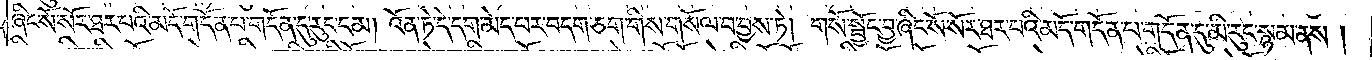ཞིང་སོ་སོར་ཐར་པའི་མདོ་གདོན་པ་གདོན་དུ་རུང་ངམ། འོན་ཏེ་དེ་དག་མེད་པར་བདག་ཅག་གིས་གསོལ་བ་བྱས་ཏེ། གསོ་སྦྱོང་བྱ་ཞིང་སོ་སོར་ཐར་པའི་མདོ་གདོན་པ་གདོན་དུ་མི་རུང་སྙམ་ནས།
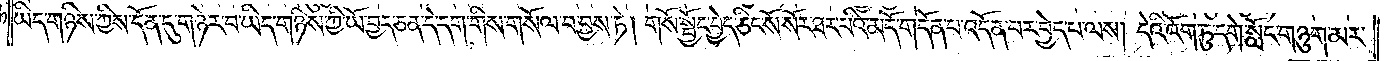ཡིད་གཉིས་ཀྱིས་དོན་དུ་གཉེར་བ་ཡིད་གཉིས་ཀྱི་ཡོ་བྱད་ཅན་དེ་དག་གིས་གསོལ་བ་བྱས་ཏེ། གསོ་སྦྱོང་བྱེད་ཅིང་སོ་སོར་ཐར་པའི་མདོ་གདོན་པ་འདོན་པར་བྱེད་པ་ལས། དེའི་འོག་ཏུ་དགེ་སློང་གཉུག་མར་
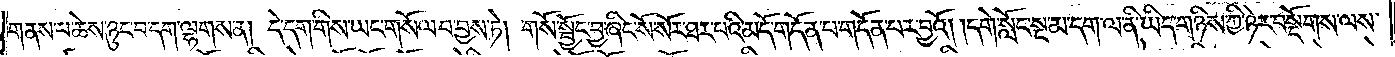གནས་པ་ཆེས་ཉུང་བ་དག་ལྷགས་ན། དེ་དག་གིས་ཡང་གསོལ་བ་བྱས་ཏེ། གསོ་སྦྱོང་བྱ་ཞིང་སོ་སོར་ཐར་པའི་མདོ་གདོན་པ་གདོན་པར་བྱའོ། །དགེ་སློང་སྔ་མ་དག་ལ་ནི་ཡིད་གཉིས་ཀྱི་ཉེར་བསྡོགས་ལས་
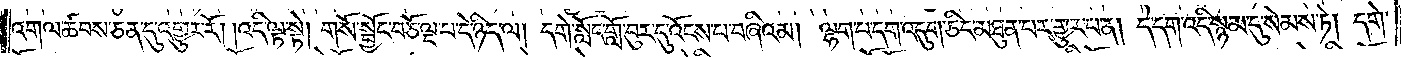འགལ་ཚབས་ཅན་དུ་འགྱུར་རོ། །འདི་ལྟ་སྟེ། གསོ་སྦྱོང་བཅོ་ལྔ་པ་དེ་ཉིད་ལ། དགེ་སློང་གློ་བུར་དུ་འོངས་པ་བཞིའམ། ལྷག་པ་དག་འདུག་ཅིང་མཐུན་པར་གྱུར་པ་ན། དེ་དག་འདི་སྙམ་དུ་སེམས་ཏེ། དགེ་
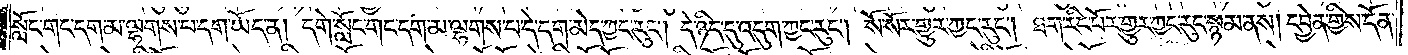སློང་གང་དག་མ་ལྷགས་པ་དག་ཡོད་ན། དགེ་སློང་གང་དག་མ་ལྷགས་པ་དེ་དག་མེད་ཀྱང་རུང༌། དེ་ཉིད་དུ་འདུག་ཀྱང་རུང༌། སོ་སོར་གྱུར་ཀྱང་རུང༌། ཐག་རིང་པོར་གྱུར་ཀྱང་རུང་སྙམ་ནས། དབྱེན་གྱིས་དོན་
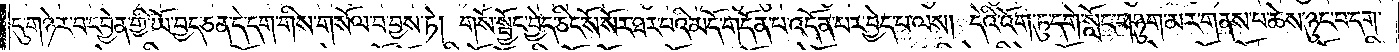དུ་གཉེར་བ་དབྱེན་གྱི་ཡོ་བྱད་ཅན་དེ་དག་གིས་གསོལ་བ་བྱས་ཏེ། གསོ་སྦྱོང་བྱེད་ཅིང་སོ་སོར་ཐར་པའི་མདོ་གདོན་པ་འདོན་པར་བྱེད་པ་ལས། དེའི་འོག་ཏུ་དགེ་སློང་གཉུག་མར་གནས་པ་ཆེས་ཉུང་བ་དག་
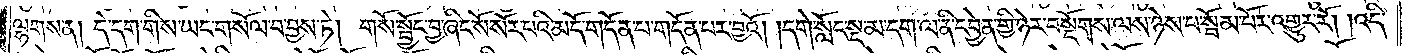ལྷགས་ན། དེ་དག་གིས་ཡང་གསོལ་བ་བྱས་ཏེ། གསོ་སྦྱོང་བྱ་ཞིང་སོ་སོར་པའི་མདོ་གདོན་པ་གདོན་པར་བྱའོ། །དགེ་སློང་སྔ་མ་དག་ལ་ནི་དབྱེན་གྱི་ཉེར་བསྡོགས་ལས་ཉེས་པ་སྦོམ་པོར་འགྱུར་རོ། །འདི་
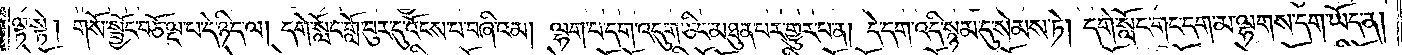ལྟ་སྟེ། གསོ་སྦྱོང་བཅོ་ལྔ་པ་དེ་ཉིད་ལ། དགེ་སློང་གློ་བུར་དུ་འོངས་པ་བཞིའམ། ལྷག་པ་དག་འདུག་ཅིང་མཐུན་པར་གྱུར་པ་ན། དེ་དག་འདི་སྙམ་དུ་སེམས་ཏེ། དགེ་སློང་གང་དག་མ་ལྷགས་དག་ཡོད་ན།
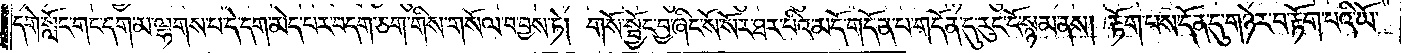དགེ་སློང་གང་དག་མ་ལྷགས་པ་དེ་དག་མེད་པར་བདག་ཅག་གིས་གསོལ་བ་བྱས་ཏེ། གསོ་སྦྱོང་བྱ་ཞིང་སོ་སོར་ཐར་པའི་མདོ་གདོན་པ་གདོན་དུ་རུང་ངོ་སྙམ་ནས། རྟོག་པས་དོན་དུ་གཉེར་བ་རྟོག་པའི་ཡོ་
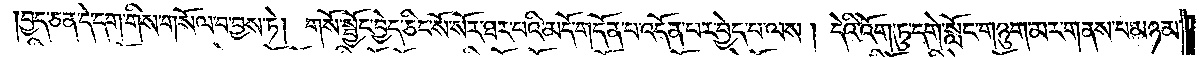བྱད་ཅན་དེ་དག་གིས་གསོལ་བ་བྱས་ཏེ། གསོ་སྦྱོང་བྱེད་ཅིང་སོ་སོར་ཐར་པའི་མདོ་གདོན་པ་འདོན་པར་བྱེད་པ་ལས། དེའི་འོག་ཏུ་དགེ་སློང་གཉུག་མར་གནས་པ་མཉམ་
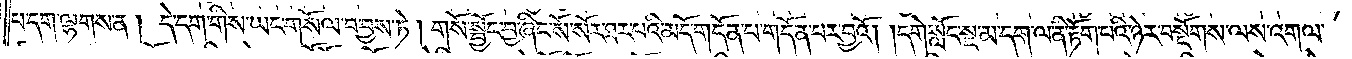པ་དག་ལྷགས་ན། དེ་དག་གིས་ཡང་གསོལ་བ་བྱས་ཏེ། གསོ་སྦྱོང་བྱ་ཞིང་སོ་སོར་ཐར་པའི་མདོ་གདོན་པ་གདོན་པར་བྱའོ། །དགེ་སློང་སྔ་མ་དག་ལ་ནི་རྟོག་པའི་ཉེར་བསྡོགས་ལས་འགལ་
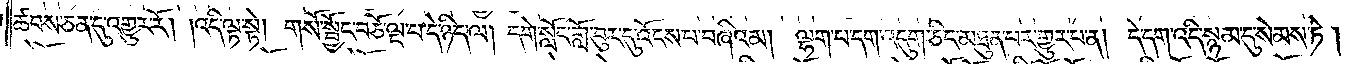ཚབས་ཅན་དུ་འགྱུར་རོ། །འདི་ལྟ་སྟེ། གསོ་སྦྱོང་བཅོ་ལྔ་པ་དེ་ཉིད་ལ། དགེ་སློང་གློ་བུར་དུ་འོངས་པ་བཞིའམ། ལྷག་པ་དག་འདུག་ཅིང་མཐུན་པར་གྱུར་པ་ན། དེ་དག་འདི་སྙམ་དུ་སེམས་ཏེ།
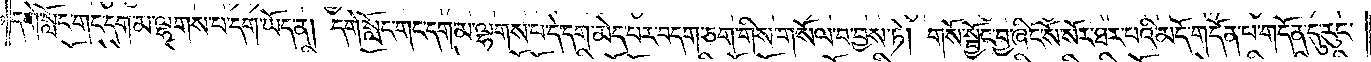དགེ་སློང་གང་དག་མ་ལྷགས་པ་དག་ཡོད་ན། དགེ་སློང་གང་དག་མ་ལྷགས་པ་དེ་དག་མེད་པར་བདག་ཅག་གིས་གསོལ་བ་བྱས་ཏེ། གསོ་སྦྱོང་བྱ་ཞིང་སོ་སོར་ཐར་པའི་མདོ་གདོན་པ་གདོན་དུ་རུང་
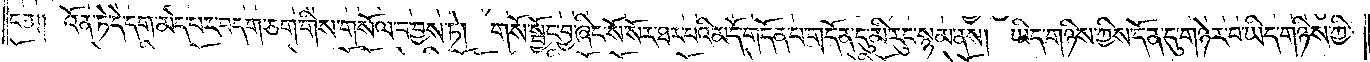ངམ། འོན་ཏེ་དེ་དག་མེད་པར་བདག་ཅག་གིས་གསོལ་བ་བྱས་ཏེ། གསོ་སྦྱོང་བྱ་ཞིང་སོ་སོར་ཐར་པའི་མདོ་གདོན་པ་གདོན་དུ་མི་རུང་སྙམ་ནས། ཡིད་གཉིས་ཀྱིས་དོན་དུ་གཉེར་བ་ཡིད་གཉིས་ཀྱི་
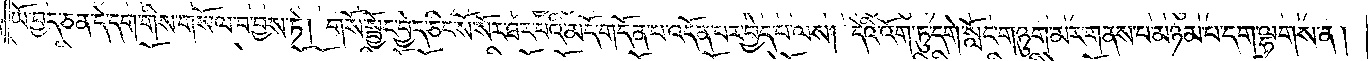ཡོ་བྱད་ཅན་དེ་དག་གིས་གསོལ་བ་བྱས་ཏེ། གསོ་སྦྱོང་བྱེད་ཅིང་སོ་སོར་ཐར་པའི་མདོ་གདོན་པ་འདོན་པར་བྱེད་པ་ལས། དེའི་འོག་ཏུ་དགེ་སློང་གཉུག་མར་གནས་པ་མཉམ་པ་དག་ལྷགས་ན།
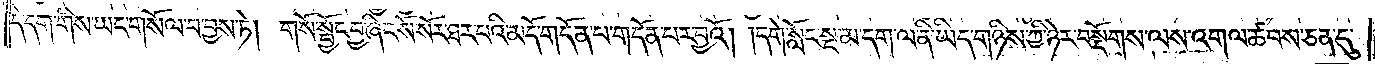དེ་དག་གིས་ཡང་གསོལ་བ་བྱས་ཏེ། གསོ་སྦྱོང་བྱ་ཞིང་སོ་སོར་ཐར་པའི་མདོ་གདོན་པ་གདོན་པར་བྱའོ། །དགེ་སློང་སྔ་མ་དག་ལ་ནི་ཡིད་གཉིས་ཀྱི་ཉེར་བསྡོགས་ལས་འགལ་ཚབས་ཅན་དུ་
